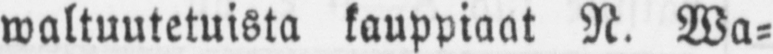waltuutetuista kauppiaat N. Wa-
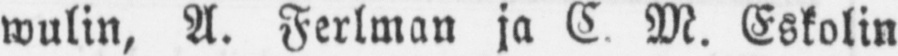wulin, A. Ferlman ja C M. Eskolin
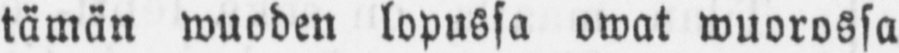tämän wuoden lopussa owat wuorossa
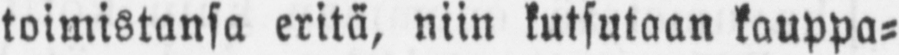toimistansa eritä, niin kutsutaan kauppa-
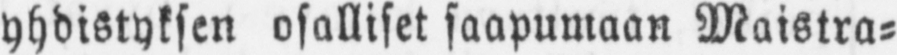yhdistyksen osalliset saapumaan Maistra-
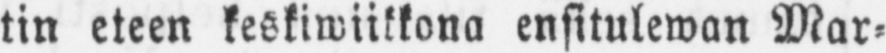tin eteen keskiwiikkona ensitulewan Mar-
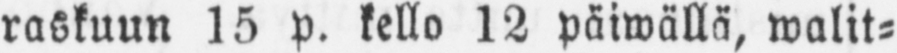raskuun 15 p. kello 12 päiwällä, walit-
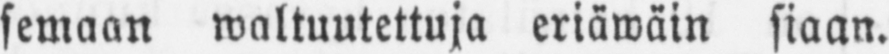semaan waltuutettuja eriäwäin siaan.
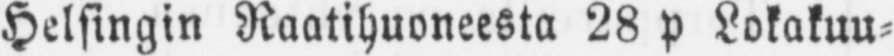Helsingin Raatihuoneesta 28 p Lokakuu-
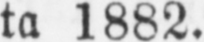ta 1862.
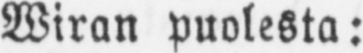Wiran puolesta:
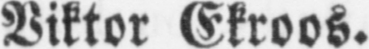Viktor Ekroos.
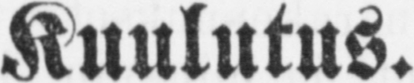Kuulutus.
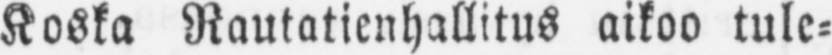Koska Rautatienhallitus aikoo tule-
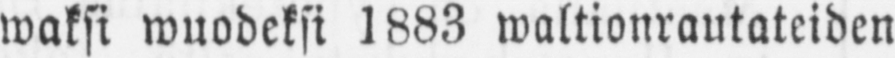waksi wuodeksi 1883 waltionrautateiden
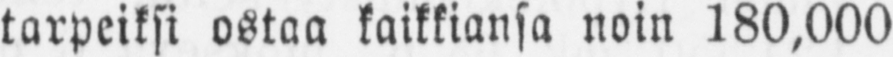tarpeiksi ostaa kaikkiansa noin 180,000
